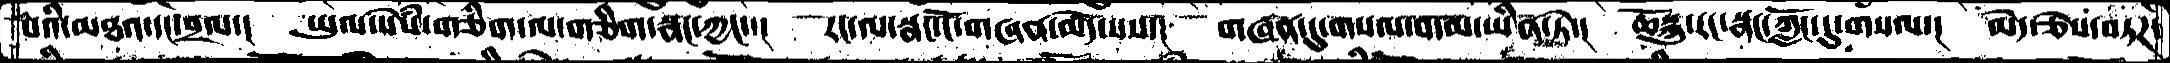པའི་མཐའ་དང་བྲལ་།  ཡུལ་སེཾས་གཅིག་ལ་གཅིག་སྣང་ཀྱང་་།  རང་ལ་སྣང་ངོ་གཞན་མེེད་པས་།  གཞན་དུ་གསལ་བ་མ་ཡིན་ཏེ་།  ཆོསྐུ་རང་སྣང་ཀློང་དུ་གསལ་།   མེད་ཅེས་བཏཌ་
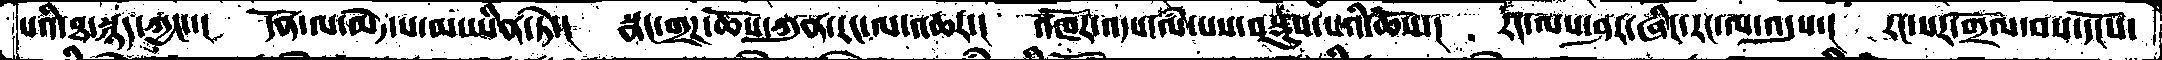པའི་ཐ་སྙད་ཀྱང་་།  དོན་ལ་མེད་པ་མ་ཡིན་ཏེ་།  སྣང་གྲཌ་ཆོས་ཀུན་རང་ལ་འཆར་།  འཁོར་འདས་ལཾ་པས་བསྡུས་པའི་ཆོས་།  རང་ལས་ཤར་ཞིང་་རང་ལ་འདུས་།  རང་སར་གྲོལ་བས་དངོས་
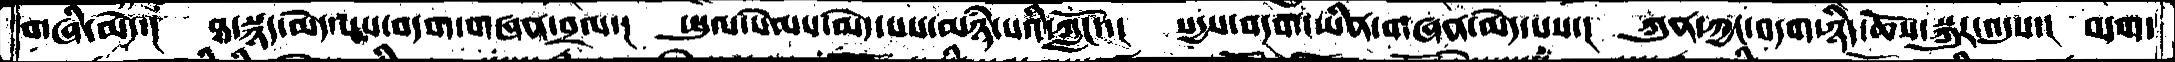གཞི་མེད་།  ཐ་སྙད་མེད་པས་བདག་གཞན་བྲལ་།  ཡུལ་སེམས་མེད་པས་མཉཾ་པའི་ཀློང་་།  སདྱས་བདག་ཡིན་གཞན་མེད་པས་།  ཀུན་ཀྱང་བདག་ཉིད་ཆོས་སྐུར་འདུས་།  བདག་
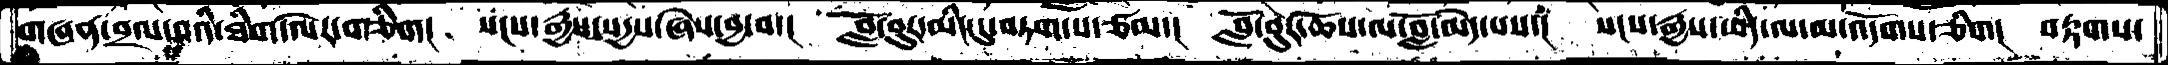གཞནབྲལ་བའི་ཐིག་ལེར་གཅིག།  སངས་རྒྱས་སདྱས་ཞེས་བྱ་བ་།  བློ་བུར་མིང་དུ་བཏགས་པ་ཙམ་།  བློ་བུར་ཆོས་ལ་བློ་མེད་པས་།   སངས་རྒྱས་ཡིད་ལ་མ་འདོགས་ཅིགང  བརྟགས་
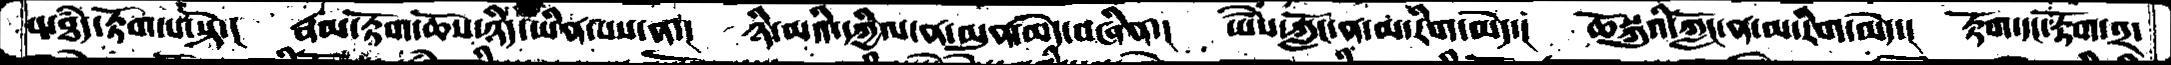པ་ཐཾད་རྟོག་པ་སྟེ་།  རྣམ་རྟོག་ཆོས་ཉིད་ཡིན་པས་ན་།  ཉི་མའི་དཀྱིལ་ན་མུན་མེད་བཞིན་།  ཡཻས་ཀློང་ན་མ་རིག་མེད་།  ཆོསྐུའི་ཀློང་ན་མ་རིག་མེད་།  རྟོག་དང་རྟོག་༢་
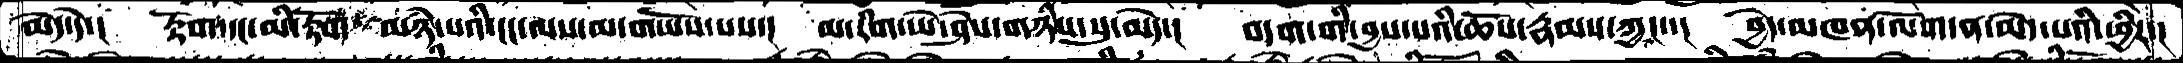མེད་དེ་།  རྟོག་དང་མི་རྟོག་མཉཾ་པའི་ངང་ལས་མ་གཡོས་པས་།  མ་རིག་ཡེ་ཤེས་གཉིས་སུ་མེད་།  བདག་གི་བྱས་པའི་ཆོས་རྣམས་ཀྱང་་།  བྱེད་མཁན་ལོག་ན་མེད་པའི་ཕྱིར་།
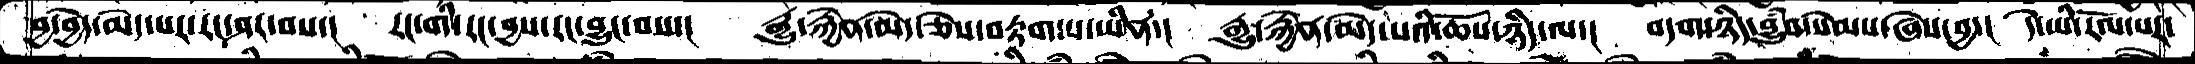བྱ་བྱེད་མེད་པར་རང་ཤར་བས་།  རང་གི་རང་བྱས་རང་བྱུང་བས་།  རྒྱུ་རྐྱེན་མེད་ཅེས་བརྟག་པ་ཡིན་།  རྒྱུ་རྐྱེན་མེད་པའི་ཆོས་ཉིད་ལ་།  བདག་ཉིད་བྱུཾབ་སེམས་ཞེས་བྱ་།  དེ་ཡི་རོལ་པར་
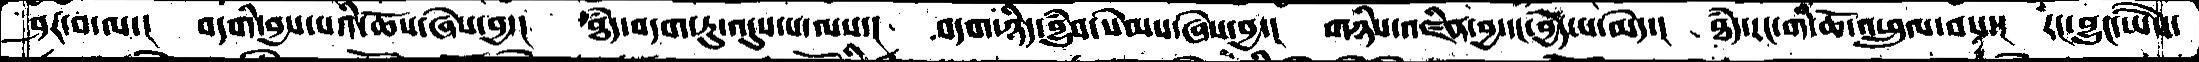ཤར་བ་ལ་།  བདགི་བྱས་པའི་ཆོས་ཞེས་བྱ་།  ཐཾད་བདག་ཏུ་འདུས་པ་ལས་།  བདག་ཉིད་བྱུཾབ་སེམས་ཞེས་བྱ་།  གཉིས་འཛིན་བྱ་དང་བྱེད་པ་མེད་།  ཐཾད་རང་གི་ཆོ་འཕྲུལ་བས་།  རང་བྱུང་ཡཻས་
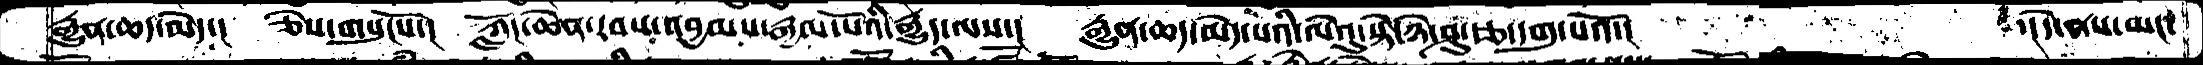རྒྱུན་ཆད་མེད་།  ཅེས་གསུངསོ་།  ཀློང་ཆེན་རབ་འབྱམས་རྒྱལ་པོའི་རྒྱུད་ལས་།  རྒྱུན་ཆད་མེད་པའི་ལེའུ་སྟེ་ཉེ་ཤུ་རྩ་དགུ་པའོ་།          ་།དེ་ནས་ཡང་
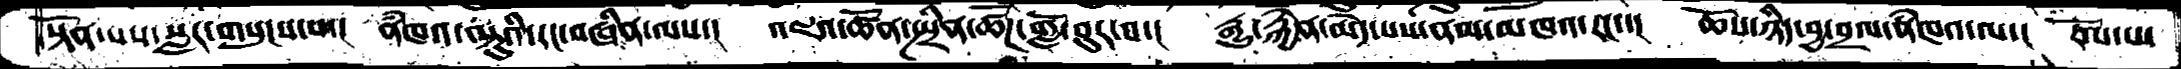སྟོན་པས་སླར་གསུངས་པ་།  ནཾཁའ་ལྟུའི་རང་བཞིན་ལས་།  འཇའ་ཚོན་སྤྲིན་ཚོཌ་གློ་བུར་བ་།  རྒྱུ་རྐྱེན་མེད་པས་ནམ་མཁའ་རང་་།  ཆོས་ཉིད་བྱ་བྲལ་ནཾཁའ་ལ་།  རོལ་པ་
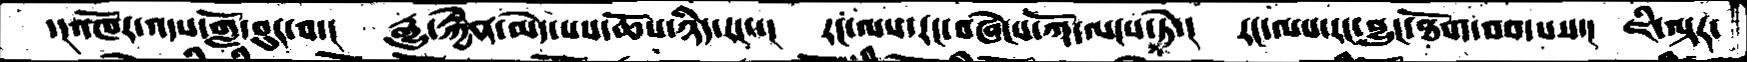་།་འཁོར་འདས་གློ་བུར་བ་།  རྒྱུ་རྐྱེན་མེད་པས་ཆོས་ཉིད་རང་་།  རང་ལས་རང་བཞེངས་ཀོ་ལངས་ཏེ་།  རང་ལས་རང་བྱུང་ཐོག་བབ་པས་།  ཇི་ལྟར་
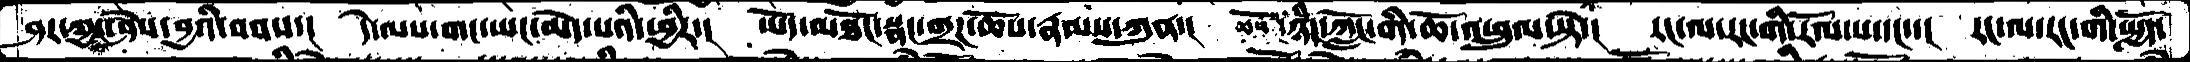ཤར་ཀྱང་ཤེས་བྱའི་བབས་།  དེ་ལས་གང་ཡང་མེད་པའི་ཕྱིར་།  ཡོད་མཐོང་སྣང་གྲཌ་ཆོས་རྣམས་ཀུན་།  ཆོས་ཉིད་ཀློང་གི་ཆོ་འཕྲུལ་སྟེ་།  རང་ལ་རང་གི་རོལ་པ་དང་་།   རང་ལ་རང་གི་སྤྱོད་
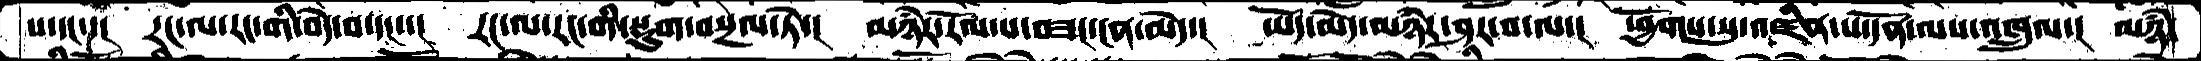པ་དང་་།  རང་ལ་རང་གི་བདེ་བ་དང་་།  རང་ལ་རང་གི་སྡུག་བསྔལ་ཏེ་།  མཉཾར་རོལ་པ་བཟང་ངན་མེད་།  ཡོད་མེད་མཉཾར་ཤར་བ་ལ་།  ཕྱོགས་སུ་འཛིན་པ་དོན་ལས་འཁྲུལ་།  མཉཾ་
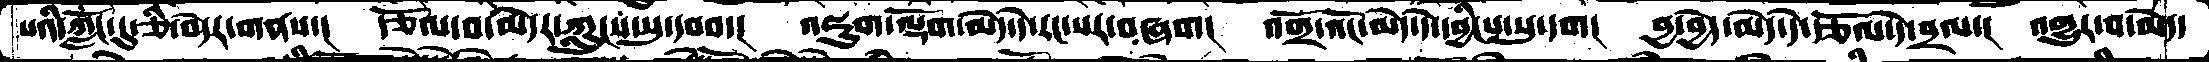པའི་ཀློང་དུ་ཅི་བདེར་གནས་།  རྩོལ་བ་མེདར་ཀླུངས་སུ་དབབ་།  འཇུག་ལྡོག་མེད་དེ་རང་སར་བཞག།  འགྲོ་འོང་མེད་དེ་དབྱིངས་སུ་དག།  བྱ་བྱེད་མེད་དེ་རྩོལ་དེ་བྲལ་།  འགྱུར་བ་མེད་
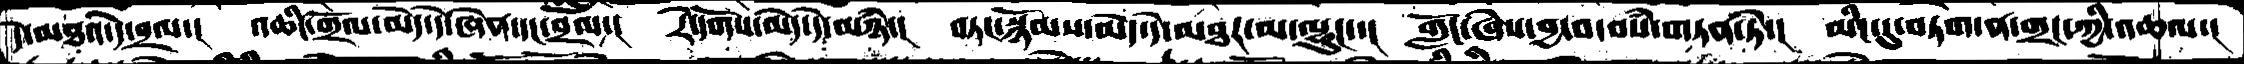དེ་མཐའ་དེ་བྲལ་།  འཆིང་གྲོལ་མེད་དེ་ཞེན་དང་བྲལ་།  རེ་དོགས་མེད་དེ་མཉཾ་།   བཏང་སྙོམས་མེད་དེ་མཐར་མ་ལྷུང་་།  གློང་ཞེས་བྱ་བ་བསཾ་གཏན་ཏེ་།  མིང་དུ་བཏག་ན་གྲང་ཀྱི་འཆལ་།
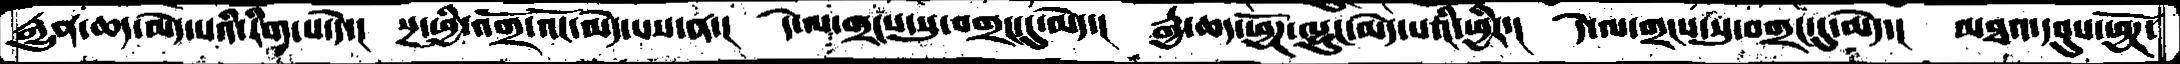རྒྱུན་ཆད་མེད་པའི་རིག་པ་དེ་།  སྔ་ཕྱི་འགྲོ་འོང་མེད་པས་ན་།  དེ་ལ་གྲངས་སུ་བགྲང་དུ་མེད་།  རྒྱ་ཆད་ཕྱོཌ་ལྷུང་མེད་པའི་ཕྱིར་།  དེ་ལ་གྲངས་སུ་བགྲང་དུ་མེད་།  མཐའ་དབུས་ཕྱོཌ་
